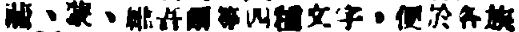藏、蒙、維吾爾等四種文字，便於各族
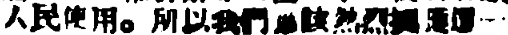人民使用。所以我們應該熱烈擁護這一
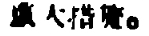重大措施。
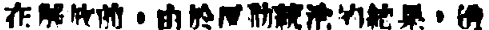在解放前，由於反動統治的結果，造
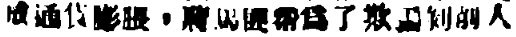成通貨膨脹，蔣馬匪帮爲了欺騙剝削人
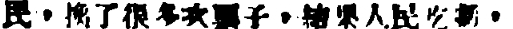民，換了很多次票子，結果人民吃虧，
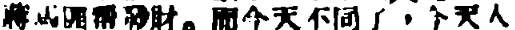蔣馬匪帮發財。而今天不同了，今天人
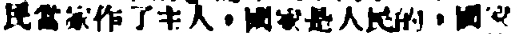民當家作了主人，國家是人民的，國家
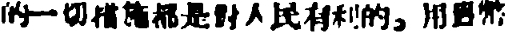的一切措施都是對人民有利的。用舊幣
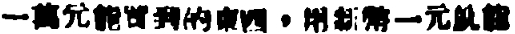一萬元能買到的東西，用新幣一元就能
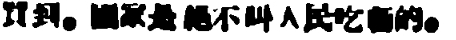買到。國家是絕不叫人民吃虧的。
